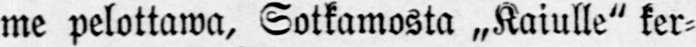me pelottawa, Sotkamosta „Kaiulle" ker-
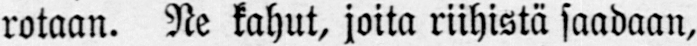rotaan. Ne kahut, joita riihistä saadaan,
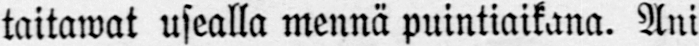taitawat usealla mennä puintiaikana. Ani
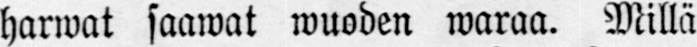harwat saawat wuoden waraa. Millä
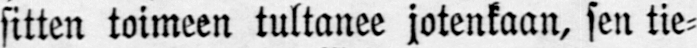sitten toimeen tultanee jotenkaan, sen tie-
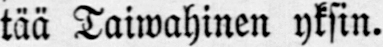tää Taiwahinen yksin.
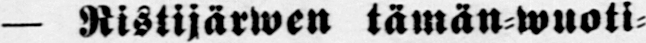— Ristijärwen tämän-wuoti-
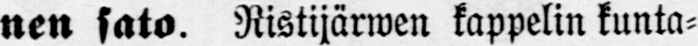nen sato. Ristijärwen kappelin kunta-
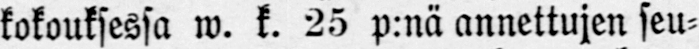kokouksessa w. k. 25 p:nä annettujen seu-
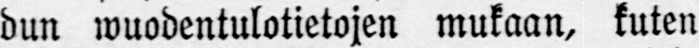dun wuodentulotietojen mukaan, kuten
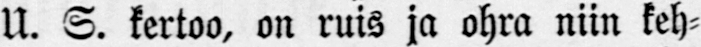U. S. kertoo, on ruis ja ohra niin keh-
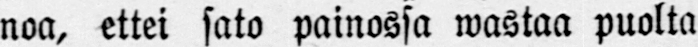noa, ettei sato painossa wastaa puolta
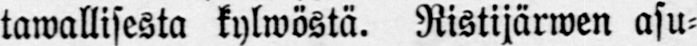tawallisesta kylwöstä. Ristijärwen asu-
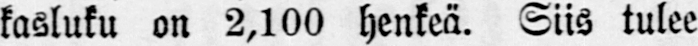kasluku on 2,100 henkeä. Siis tulee
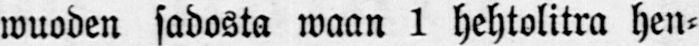wuoden sadosta waan 1 hehtolitra hen-
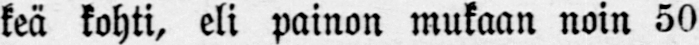keä kohti, eli painon mukaan noin 50
